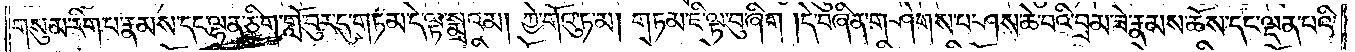གསུམ་རིག་པ་རྣམས་དང་ལྷན་ཅིག་གློ་བུར་དུ་གཏམ་དེ་ལྟ་སྨྲའམ། ཀྱེ་གོའུ་ཏ་མ། གཏམ་ཇི་ལྟ་བུ་ཞིག །དེ་བཞིན་གཤེགས་པ་ཤས་ཆེ་བའི་བྲམ་ཟེ་རྣམས་ཆོས་དང་ལྡན་པའི་
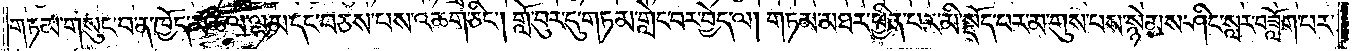གཏམ་གསུང་བ་ན་ཁྱོད་མཆིལ་ལྷམ་དང་བཅས་པས་འཆག་ཅིང༌། གློ་བུར་དུ་གཏམ་གླེང་བར་བྱེད་ལ། གཏམ་མཐར་ཕྱིན་པར་མི་སྡོད་པར་མ་གུས་པས་སྙེམས་ཤིང་སླར་བཟློག་པར་
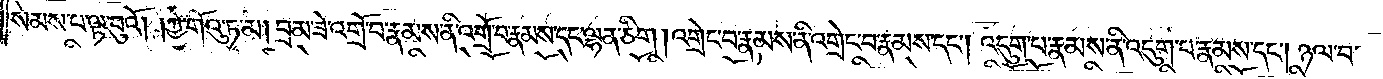སེམས་པ་ལྟ་བུའོ། །ཀྱེ་གོའུ་ཏ་མ། བྲམ་ཟེ་འགྲོ་བ་རྣམས་ནི་འགྲོ་བ་རྣམས་དང་ལྷན་ཅིག །འགྲེང་བ་རྣམས་ནི་འགྲེང་བ་རྣམས་དང༌། འདུག་པ་རྣམས་ནི་འདུག་པ་རྣམས་དང༌། ཉལ་བ་
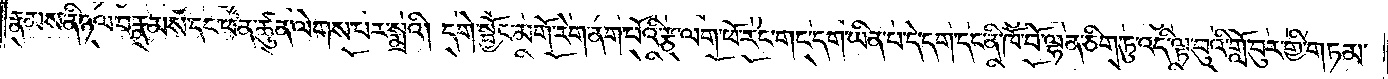རྣམས་ནི་ཉལ་བ་རྣམས་དང་ཕན་ཚུན་ལེགས་པར་སྨྲའོ། དགེ་སྦྱོང་མགོ་རེག་ནག་པོའི་རྩ་ལག་ཕོ་རེང་གང་དག་ཡིན་པ་དེ་དག་དང་ནི་ཁོ་བོ་ལྷན་ཅིག་ཏུ་འདི་ལྟ་བུའི་གློ་བུར་གྱི་གཏམ་
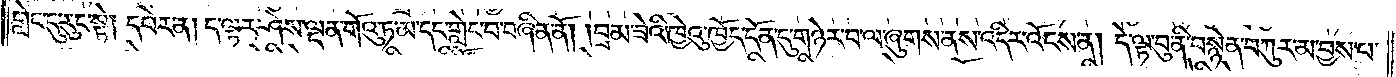གླེང་དུ་རུང་སྟེ། དཔེར་ན། ད་ལྟར་ཤེས་ལྡན་གོའུ་ཏ་མ་དང་གླེང་བ་བཞིན་ནོ། །བྲམ་ཟེའི་ཁྱེའུ་ཁྱོད་དོན་དུ་གཉེར་བ་ལ་ཞུགས་ནས་འདིར་འོངས་ན། དེ་ལྟ་བུ་ནི་བསྙེན་བཀུར་མ་བྱས་པ་
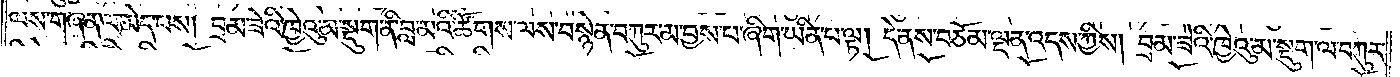ལས་གཞན་ལ་མེད་པས། བྲམ་ཟེའི་ཁྱེའུ་མ་སྡུག་ནི་བླ་མའི་ཚོགས་ལས་བསྙེན་བཀུར་མ་བྱས་པ་ཞིག་ཡིན་པ་ལྟ། དེ་ནས་བཅོམ་ལྡན་འདས་ཀྱིས། བྲམ་ཟེའི་ཁྱེའུ་མ་སྡུག་ལ་བཀུར་
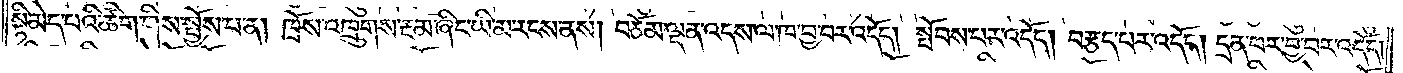སྟི་མེད་པའི་ཚིག་གིས་སྤྱོས་པ་ན། ཁྲོས་འཁྲུགས་རྔམ་ཞིང་ཡི་མ་རངས་ནས། བཅོམ་ལྡན་འདས་ལ་ཁ་བྱ་བར་འདོད། སྤོབས་པར་འདོད། བརྩད་པར་འདོད། དྲན་པར་བྱ་བར་འདོད།
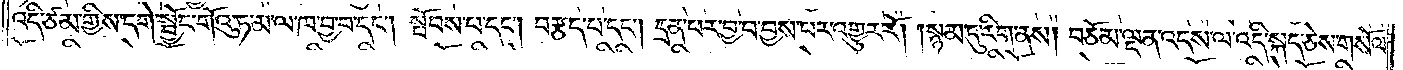འདི་ཙམ་གྱིས་དགེ་སྦྱོང་གོའུ་ཏ་མ་ལ་ཁ་བྱ་བ་དང༌། སྤོབས་པ་དང༌། བརྩད་པ་དང༌། དྲན་པར་བྱ་བ་བྱས་པར་འགྱུར་རོ། །སྙམ་དུ་རིག་ནས། བཅོམ་ལྡན་འདས་ལ་འདི་སྐད་ཅེས་གསོལ་
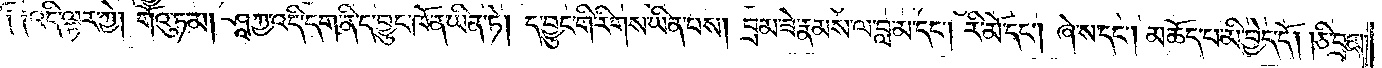༑ ༑འདི་ལྟར་ཀྱེ། གོའུ་ཏ་མ། ཤཱཀྱ་འདི་དག་ནི་ད་བྱུང་ཁོ་ན་ཡིན་ཏེ། ད་བྱུང་གི་རིགས་ཡིན་པས། བྲམ་ཟེ་རྣམས་ལ་བླ་མ་དང༌། རི་མོ་དང༌། ཞེ་ས་དང༌། མཆོད་པ་མི་བྱེད་དོ། །ཅི་བྲམ་
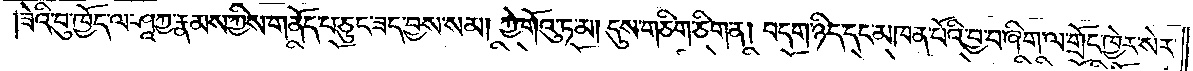ཟེའི་བུ་ཁྱོད་ལ་ཤཱཀྱ་རྣམས་ཀྱིས་གནོད་པ་ཅུང་ཟད་བྱས་སམ། ཀྱེ་གོའུ་ཏ་མ། དུས་གཅིག་ཅིག་ན། བདག་ཉིད་དང་མཁན་པོའི་བྱ་བ་ཞིག་ལ་གྲོང་ཁྱེར་སེར་
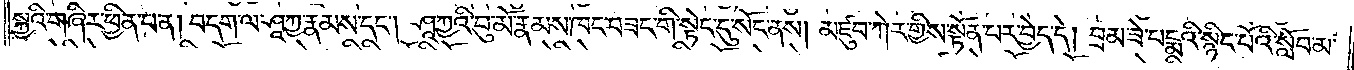སྐྱའི་གཞིར་ཕྱིན་པ་ན། བདག་ལ་ཤཱཀྱ་རྣམས་དང༌། ཤཱཀྱའི་བུ་མོ་རྣམས་ཁང་བཟང་གི་སྟེང་དུ་སོང་ནས། མཛུབ་ཀེར་གྱིས་སྟོན་པར་བྱེད་དེ། བྲམ་ཟེ་པདྨའི་སྙིང་པོའི་སློབ་མ་
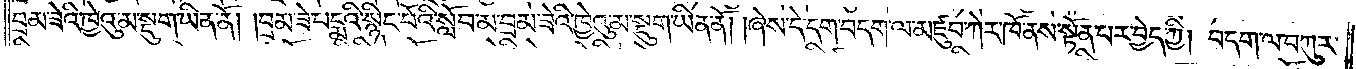བྲམ་ཟེའི་ཁྱེའུ་མ་སྡུག་ཡིན་ནོ། །བྲམ་ཟེ་པདྨའི་སྙིང་པོའི་སློབ་མ་བྲམ་ཟེའི་ཁྱེའུ་མ་སྡུག་ཡིན་ནོ། །ཞེས་དེ་དག་བདག་ལ་མཛུབ་ཀེར་ཁོ་ནས་སྟོན་པར་བྱེད་ཀྱི། བདག་ལ་བཀུར་
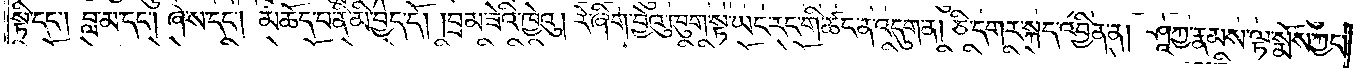སྟི་དང༌། བླ་མ་དང༌། ཞེས་དང༌། མཆོད་པ་ནི་མི་བྱེད་དོ། །བྲམ་ཟེའི་ཁྱེའུ། རེ་ཞིག་བྱེའུ་ཁུག་སྟ་ཡང་རང་གི་ཚང་ན་འདུག་ན། ཅི་དགར་སྐད་འབྱིན་ན། ཤཱཀྱ་རྣམས་ལྟ་སྨོས་ཀྱང་
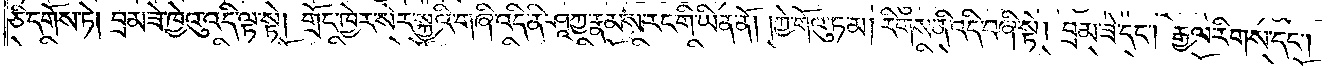ཅི་དགོས་ཏེ། བྲམ་ཟེ་ཁྱེའུ་འདི་ལྟ་སྟེ། གྲོང་ཁྱེར་སེར་སྐྱའི་གཞི་འདི་ནི་ཤཱཀྱ་རྣམས་རང་གི་ཡིན་ནོ། །ཀྱེ་གོའུ་ཏ་མ། རིགས་ནི་འདི་བཞི་སྟེ། བྲམ་ཟེ་དང༌། རྒྱལ་རིགས་དང༌།
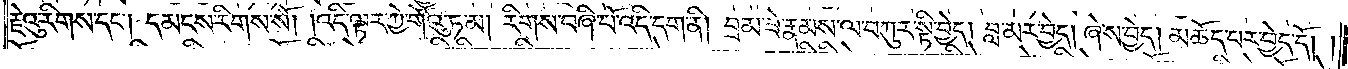རྗེའུ་རིགས་དང༌། དམངས་རིགས་སོ། །འདི་ལྟར་ཀྱེ་གོའུ་ཏ་མ། རིགས་བཞི་པོ་འདི་དག་ནི། བྲམ་ཟེ་རྣམས་ལ་བཀུར་སྟི་བྱེད། བླ་མར་བྱེད། ཞེས་བྱེད། མཆོད་པར་བྱེད་དོ། །
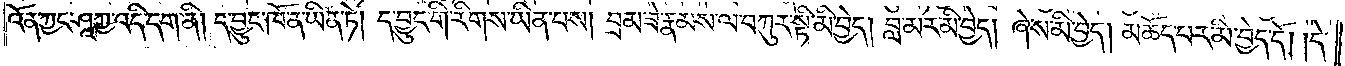འོན་ཀྱང་ཤཱཀྱ་འདི་དག་ནི། ད་བྱུང་ཁོ་ན་ཡིན་ཏེ། ད་བྱུང་གི་རིགས་ཡིན་པས། བྲམ་ཟེ་རྣམས་ལ་བཀུར་སྟི་མི་བྱེད། བླ་མར་མི་བྱེད། ཞེ་ས་མི་བྱེད། མཆོད་པར་མི་བྱེད་དོ། །དེ་
